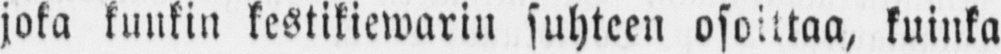joka kuukin kestikiewarin suhteen osoittaa, kuinka
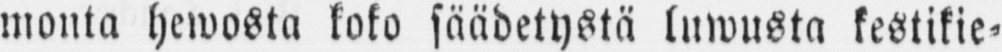monta hewosta koko säädetystä luwusta kestikie-
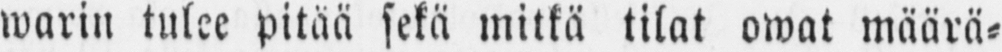warin tulee pitää sekä mitkä tilat owat määrä-
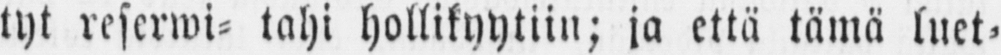tyt reserwi- tahi hollikyytiin; ja että tämä luet-
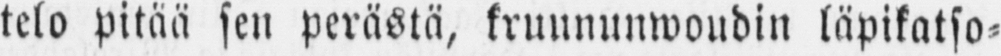telo pitää sen perästä, kruununwoudin läpikatso-
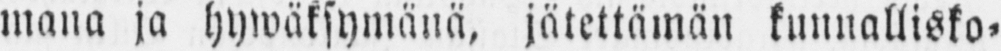mana ja hywäksymänä, jätettämän kunnallisko-
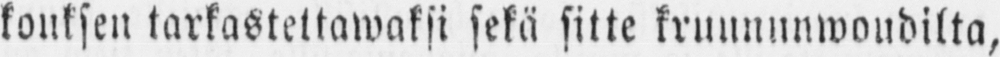kouksen tarkastettawaksi seka sitte kruununwoudilta,
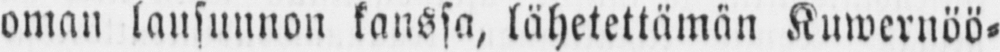oman lausunnon kanssa, lähetettämän Kuwernöö-
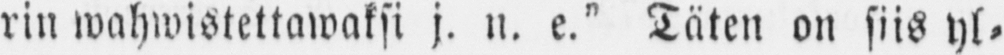rin wahwistettawaksi j. n. e.” Täten on siis yl-
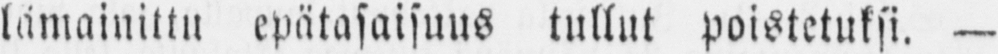lämainittu epätasaisuus tullut poistetuksi. —
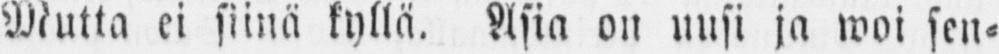Mutta ei siinä kyllä. Asia on uusi ja woi sen-
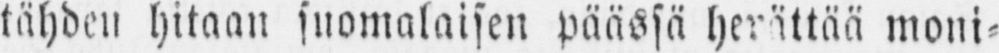tähden hitaan suomalaisen päässä herättää moni-
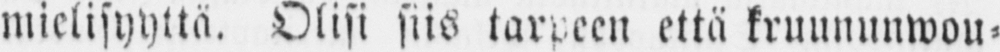mielisyyttä. Olisi siis tarpeen että kruununwou-
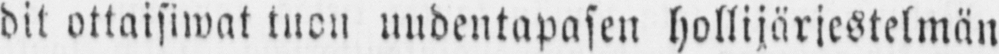dit ottaisiwat tuon uudentapasen hollijärjestelmän
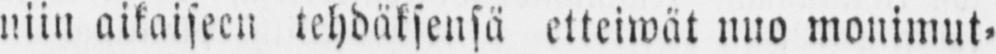niin aikaiseen tehdäksensä etteiwat nuo monimut-
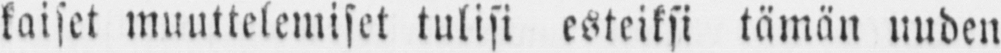kaiset muuttelemiset tulisi esteiksi tämän uuden
